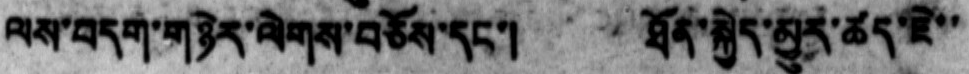ལས་བདག་གཉེར་ལེགས་བཅོས་དང་།  ཐོན་སྐྱེད་མྱུར་ཚད་ཇེ་་
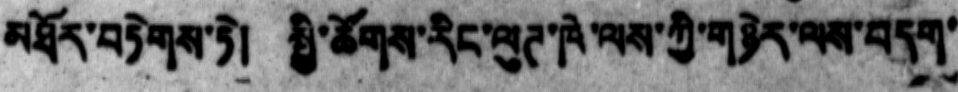མཐོར་བཏེགས་ཏེ།  སྤྱི་ཚོགས་རིང་ལུཊ་ཁེ་ལས་གཉེར་ལས་བདག་
